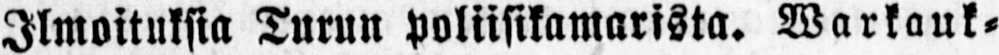Ilmoituksia Turun Poliisikamarista. Warkauk-
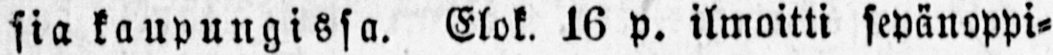sia kaupungissa. Elok. 16 p. ilmoitti sepänoppi-
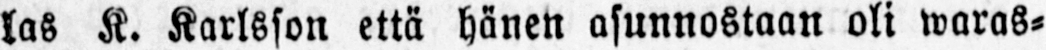las K. Karlsson että hänen asunnostaan oli waras-
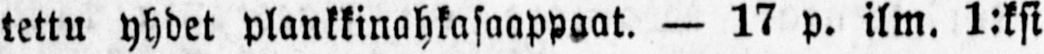tettu yhdet plankkinahkasaappaat. — 17 p. ilm. 1:ksi
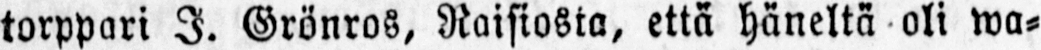torppari I. Grönros, Raisiosta, että häneltä oli wa-
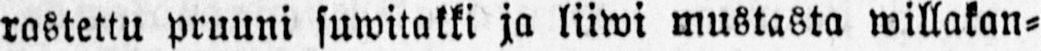rastettu pruuni suwitakki ja liiwi mustasta willakan-
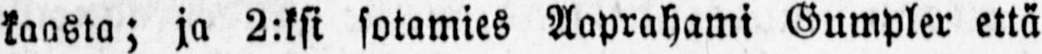kaasta; ja 2:ksi sotamies Aaprahami Gumpler että
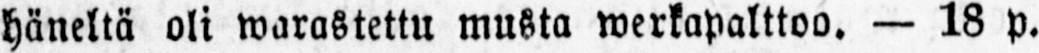häneltä oli warastettu musta werkapalttoo. — 18 p.
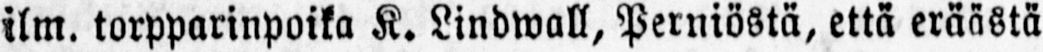ilm. torpparinpoika K. Lindwall, Perniöstä, että eräästä
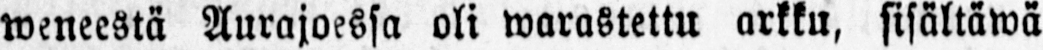weneestä Aurajoessa oli warastettu arkku, sisältäwä
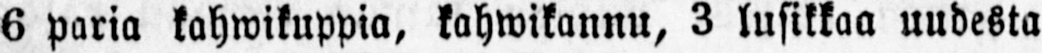6 paria kahwikuppia, kahwikannu, 3 lusikkaa uudesta
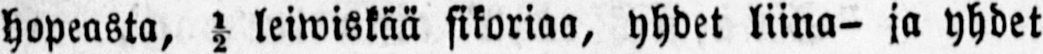hopeasta,½ leiwiskää sikoriaa, yhdet liina- ja yhdet
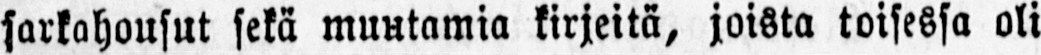sarkahousut sekä muutamia kirjeitä, joista toisessa oli
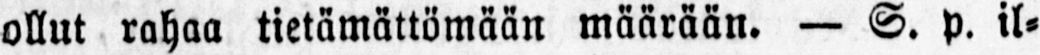ollut rahaa tietämättömään määrään. — S. p. il-
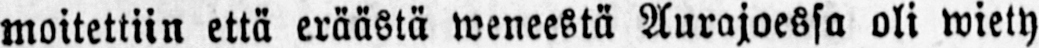moitettiin että eräästä weneestä Aurajoessa oli wiety
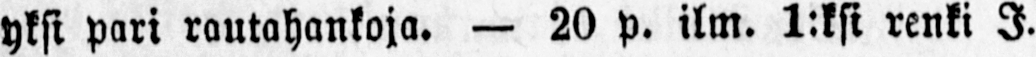yksi pari rautahankoja. — 20 p. ilm. 1:ksi renki I.
